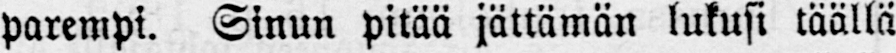parempi. Sinun pitää jättämän lukusi täällä
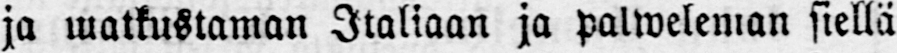ja watkustaman Italiaan ja palweleman siellä
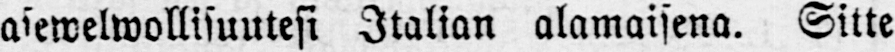asewelwollisuutesi Italian alamaisena. Sitte
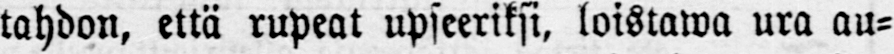tahdon, että rupeat upseeriksi, loistawa ura au-
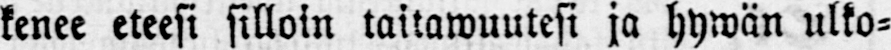kenee eteesi silloin taitawuutesi ja hywän ulko-
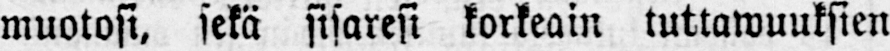muotosi, sekä sisaresi korkeain tuttawuuksien
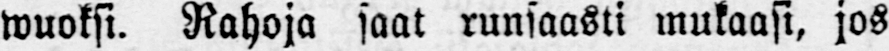wuoksi. Rahoja saat runsaasti mukaasi, jos
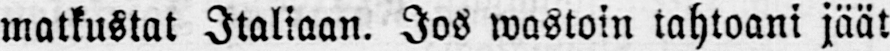matkustat Italiaan. Jos wastoin tahtoani jäät
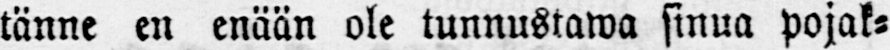tänne en enään ole tunnustawa sinua pojak-
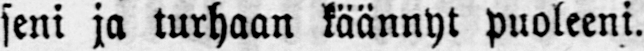seni ja turhaan käännyt puoleeni.
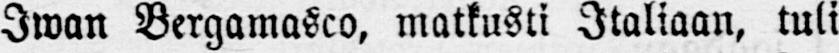Iwan Bergamasco, matkusti Italiaan, tuli
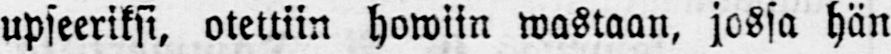upseeriksi, otettiin howiin wastaan, jossa hän
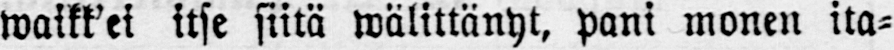waikk'ei itse siitä wälittänyt, pani monen ita-
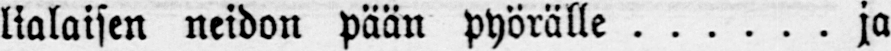lialaisen neidon pään pyörälle ja
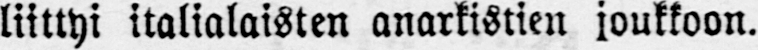liittyi italialaisten anarkistien joukkoon.
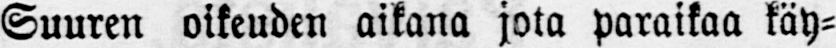Suuren oikeuden aikana jota paraikaa käy-
